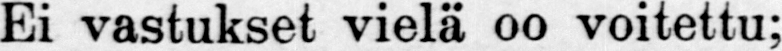Ei vastukset vielä oo voitettu;
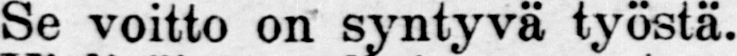Se voitto on syntyvä työstä.
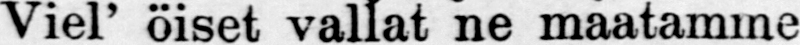Viet' öiset vallat ne maatamme
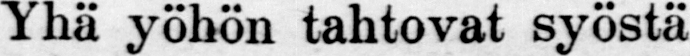Yhä tahtovat syöstä
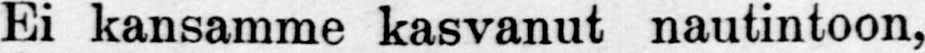Ei kansamme kasvanut nautintoon,
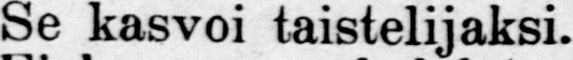Se kasvoi taistelijaksi.
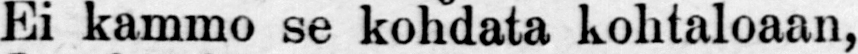Ei kammo se kohdata kohtaloaan,
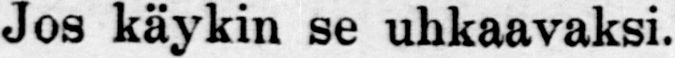Jos käykin se uhkaavaksi.
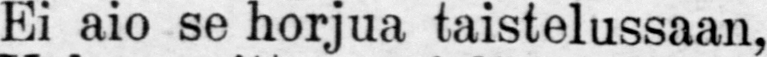Ei aio se horjua taistelussaan,
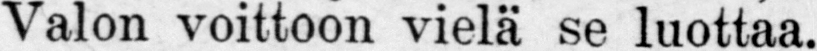Valon voittoon vielä se luottaa,
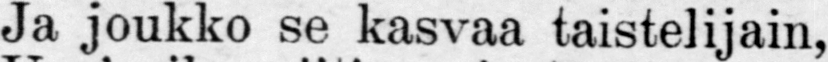ja joukko se kasvaa taistelijain,
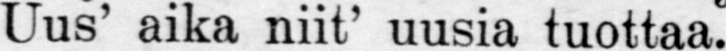Uus' aika niit' uusia tuottaa.
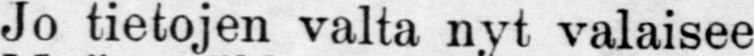jo tietojen valta nyt valaisee
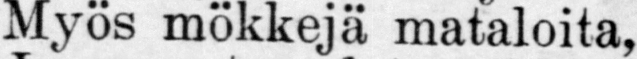Myös mökkejä mataloita,
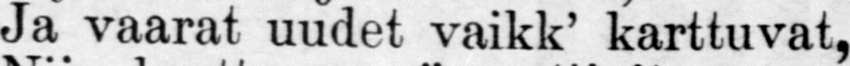ja vaarat uudet vaikk' karttuvat,
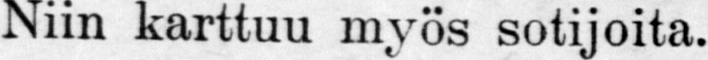Niin karttuu myös sotijoita.
